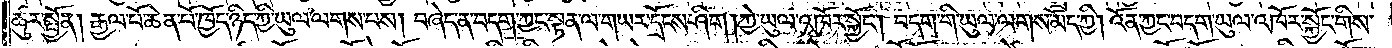ཚུར་སྤྱོན། རྒྱལ་པོ་ཆེན་པོ་ཁྱོད་ཉིད་ཀྱི་ཡུལ་ལགས་པས། བཞེད་ན་བདག་ཀྱང་སྟན་ལ་གཡར་དྲོངས་ཤིག །ཀྱེ་ཡུལ་འཁོར་སྐྱོང༌། བདག་གི་ཡུལ་ལགས་མོད་ཀྱི། འོན་ཀྱང་བདག་ཡུལ་འཁོར་སྐྱོང་གིས་
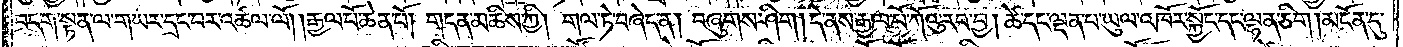བདག་སྟན་ལ་གཡར་དྲང་བར་འཚལ་ལོ། །རྒྱལ་པོ་ཆེན་པོ། གདན་མཆིས་ཀྱི། གལ་ཏེ་བཞེད་ན། བཞུགས་ཤིག། དེ་ནས་རྒྱལ་པོ་ཀོའུ་རབ་བྱ། ཚེ་དང་ལྡན་པ་ཡུལ་འཁོར་སྐྱོང་དང་ལྷན་ཅིག །མངོན་དུ་
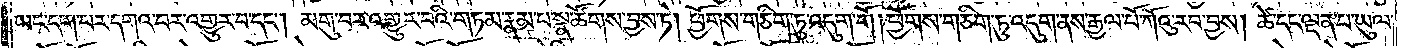ཡང་དག་པར་དགའ་བར་འགྱུར་བ་དང༌། མགུ་བར་འགྱུར་བའི་གཏམ་རྣམ་པ་སྣ་ཚོགས་བྱས་ཏེ། ཕྱོགས་གཅིག་ཏུ་འདུག་གོ །ཕྱོགས་གཅིག་ཏུ་འདུག་ནས་རྒྱལ་པོ་ཀོའུ་རབ་བྱས། ཚེ་དང་ལྡན་པ་ཡུལ་
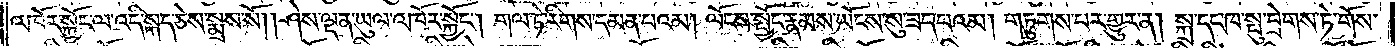འཁོར་སྐྱོང་ལ་འདི་སྐད་ཅེས་སྨྲས་སོ། །ཤེས་ལྡན་ཡུལ་འཁོར་སྐྱོང༌། གལ་ཏེ་རིགས་དམན་པའམ། ལོངས་སྤྱོད་རྣམས་ཡོངས་སུ་ཟད་པའམ། གཏུགས་པར་གྱུར་ན། སྐྲ་དང་ཁ་སྤུ་བྲེགས་ཏེ་གོས་
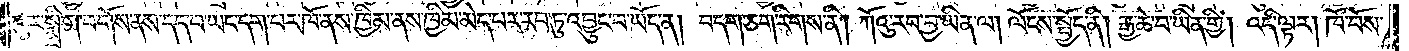ངུར་སྨྲིག་བགོས་ནས་དད་པ་ཡང་དག་པར་ཁོ་ནས་ཁྱིམ་ནས་ཁྱིམ་མེད་པར་རབ་ཏུ་འབྱུང་བ་ཡོད་ན། བདག་ཅག་རིགས་ནི། ཀོའུ་རབ་བྱ་ཡིན་ལ། ལོངས་སྤྱོད་ནི། རྒྱ་ཆེ་བ་ཡིན་གྱི། འདི་ལྟར། ཁོ་བོས་
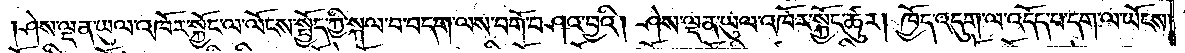ཤེས་ལྡན་ཡུལ་འཁོར་སྐྱོང་ལ་ལོངས་སྤྱོད་ཀྱི་སྐལ་བ་བདག་ལས་བགོ་བཤའ་བྱའི། ཤེས་ལྡན་ཡུལ་འཁོར་སྐྱོང་ཚུར། ཁྱོད་འདུག་ལ་འདོད་པ་དག་ལ་ཡོངས་
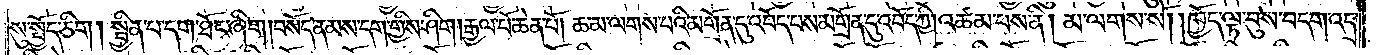སུ་སྤྱོད་ཅིག །སྦྱིན་པ་དག་ཐོང་ཞིག །བསོད་ནམས་དག་གྱིས་ཤིག །རྒྱལ་པོ་ཆེན་པོ། ཆ་མ་ལགས་པའི་མགྲོན་དུ་འབོད་པས་མགྲོན་དུ་འབོད་ཀྱི། འཚམ་པས་ནི། མ་ལགས་སོ། །ཁྱོད་ལྟ་བུས་བདག་འདྲ་
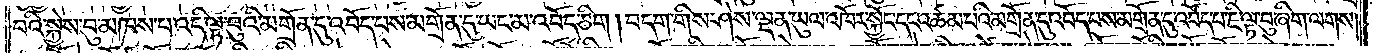བའི་སྐྱེས་བུ་མཁས་པ་འདི་ལྟ་བུའི་མགྲོན་དུ་འབོད་པས་མགྲོན་དུ་ཡང་མ་འབོད་ཅིག །བདག་གིས་ཤེས་ལྡན་ཡུལ་འཁོར་སྐྱོང་དང་འཚམ་པའི་མགྲོན་དུ་འབོད་པས་མགྲོན་དུ་འབོད་པ་ཇི་ལྟ་བུ་ཞིག་ལགས་
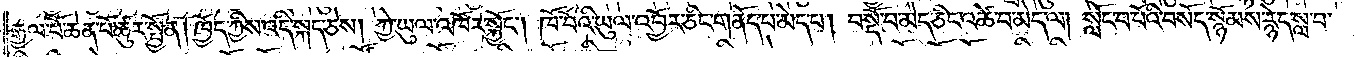རྒྱལ་པོ་ཆེན་པོ་ཚུར་སྤྱོན། ཁྱོད་ཀྱིས་འདི་སྐད་ཅེས། ཀྱེ་ཡུལ་འཁོར་སྐྱོང༌། ཁོ་བོའི་ཡུལ་འབྱོར་ཅིང་གནོད་པ་མེད་པ། བསྡོ་བ་མེད་ཅིང་འཚེ་བ་མེད་ལ། སློང་བ་པོའི་བསོད་སྙོམས་རྙེད་སླ་བ་
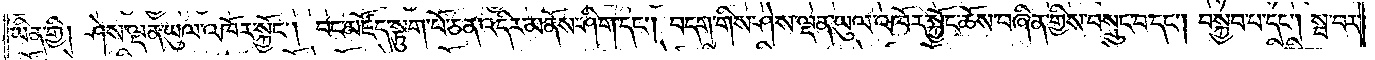ཡིན་གྱི། ཤེས་ལྡན་ཡུལ་འཁོར་སྐྱོང༌། བང་མཛོད་སྟུག་པོ་ཅན་འདིར་མནོས་ཤིག་དང༌། བདག་གིས་ཤེས་ལྡན་ཡུལ་འཁོར་སྐྱོང་ཆོས་བཞིན་གྱིས་བསྲུང་བ་དང༌། བསྐྱབ་པ་དང༌། སྦ་བར་
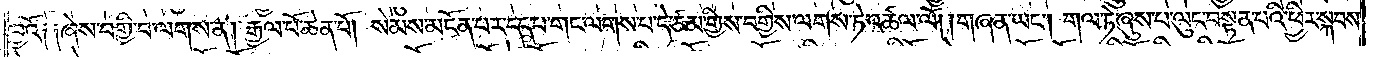བྱའོ༑ ༑ཞེས་བགྱི་བ་ལགས་ན། རྒྱལ་པོ་ཆེན་པོ། སེམས་མངོན་པར་དད་པ་གང་ལགས་པ་དེ་ཙམ་གྱིས་བགྱིས་ལགས་ཏེ་འཚལ་ལོ། །གཞན་ཡང༌། གལ་ཏེ་ཞུས་པ་ལུང་བསྟན་པའི་ཕྱིར་སྐབས་
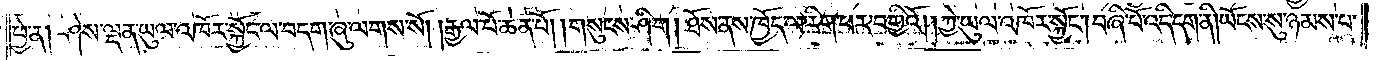ཕྱེ་ན། ཤེས་ལྡན་ཡུལ་འཁོར་སྐྱོང་ལ་བདག་ཞུ་ལགས་སོ། །རྒྱལ་པོ་ཆེན་པོ། །གསུངས་ཤིག །ཐོས་ནས་ཁྱོད་ལ་རིག་པར་བགྱིའོ། །ཀྱེ་ཡུལ་འཁོར་སྐྱོང༌། བཞི་པོ་འདི་དག་ནི། ཡོངས་སུ་ཉམས་པ་
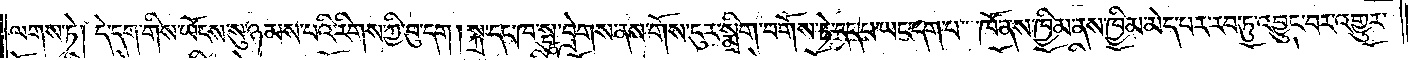ལགས་ཏེ། དེ་དག་གིས་ཡོངས་སུ་ཉམས་པའི་རིགས་ཀྱི་བུ་དག །སྐྲ་དང་ཁ་སྤུ་བྲེགས་ནས་གོས་ངུར་སྨྲིག་བགོས་ཏེ་དད་པ་ཡང་དག་པ་ཁོ་ནས་ཁྱིམ་ནས་ཁྱིམ་མེད་པར་རབ་ཏུ་འབྱུང་བར་འགྱུར་
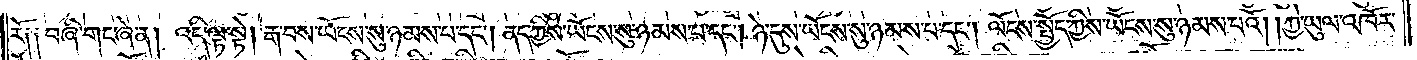རོ༑ ༑བཞི་གང་ཞེ་ན། འདི་ལྟ་སྟེ། རྒ་བས་ཡོངས་སུ་ཉམས་པ་དང༌། ནད་ཀྱིས་ཡོངས་སུ་ཉམས་པ་དང༌། ཉེ་དུས་ཡོངས་སུ་ཉམས་པ་དང༌། ལོངས་སྤྱོད་ཀྱིས་ཡོངས་སུ་ཉམས་པའོ། །ཀྱེ་ཡུལ་འཁོར་
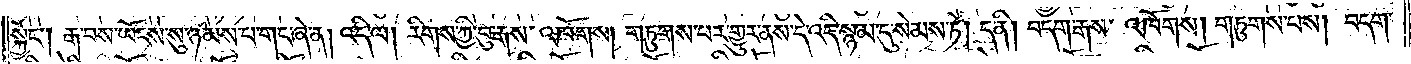སྐྱོང༌། རྒ་བས་ཡོངས་སུ་ཉམས་པ་གང་ཞེ་ན། འདི་ལ། རིགས་ཀྱི་བུ་རྒས་འཁོགས། གཏུགས་པར་གྱུར་ནས་དེ་འདི་སྙམ་དུ་སེམས་ཏེ། ད་ནི། བདག་རྒས། འཁོགས། གཏུགས་པས། བདག་
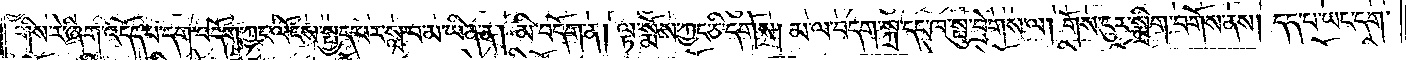གིས་རེ་ཞིག་འདོད་པ་དག་བདོག་ཀྱང་ལོངས་སྤྱད་པར་སླ་བ་མ་ཡིན་ན། མི་བདོག་ན། ལྟ་སྨོས་ཀྱང་ཅི་དགོས། མ་ལ་བདག་སྐྲ་དང་ཁ་སྦུ་བྲེགས་ལ། གོས་ངུར་སྨྲིག་བགོས་ནས། དད་པ་ཡང་དག་
